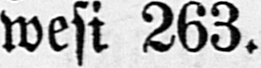wesi 263.
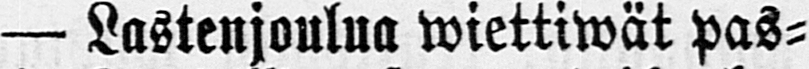— Lastenjoulua wiettiwät pas-
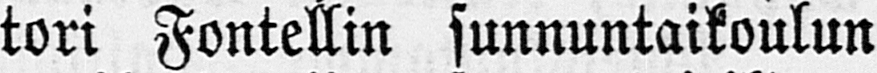tori Fontellin sunnuntaikoulun
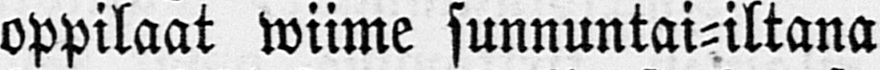oppilaat wiime sunnuntai-iltana
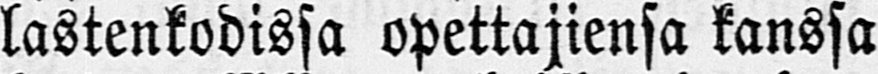lastenkodissa opettajiensa kanssa
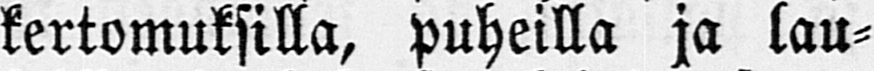kertomuksilla, puheilla ja lau-
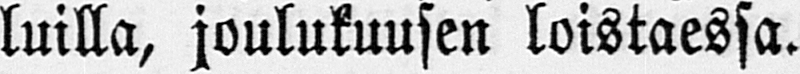luilla, joulukuusen loistaessa.
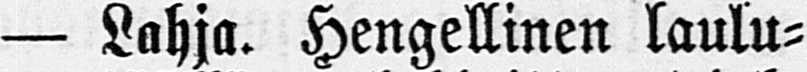— Lahja. Hengellinen laulu-
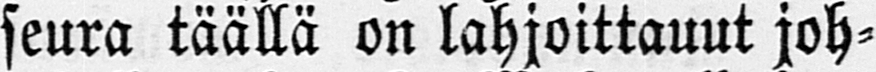seura täällä on lahjoittanut joh-
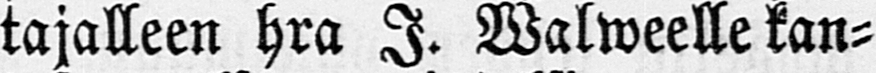tajalleen hra I. Walweelle kan-
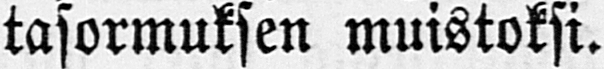tasormuksen muistoksi.
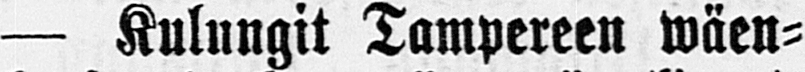— Kulungit Tampereen wäen-
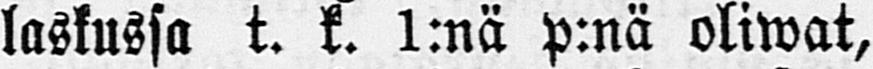laskussa t. k. 1:nä p:nä oliwat,
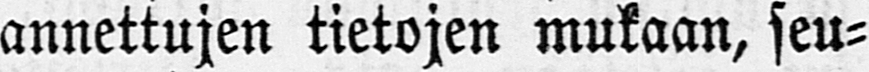annettujen tietojen mukaan, seu-
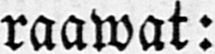raawat:
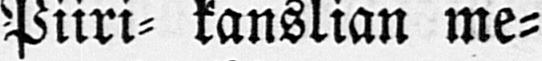Piiri- kanslian me-
